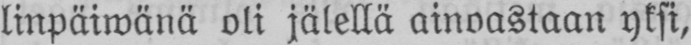linpäiwänä oli jälellä ainoastaan yksi,
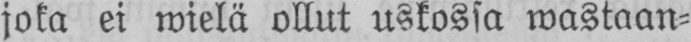joka ei wielä ollut uskossa wastaan-
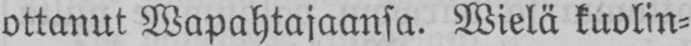ottanut Wapahtajaansa. Wielä kuolin-
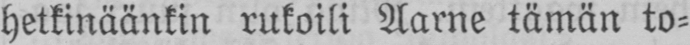hetkinäänkin rukoili Aarne tämän to-
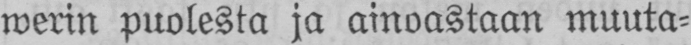werin puolesta ja ainoastaan muuta-
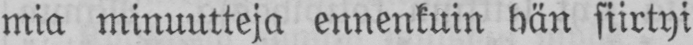mia minuutteja ennenkuin hän siirtyi
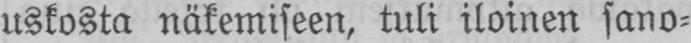uskosta näkemiseen, tuli iloinen sano-
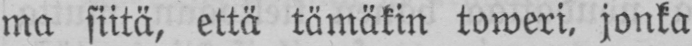ma siitä, että tämäkin toweri, jonka
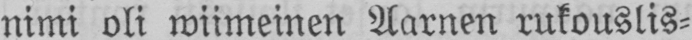nimi oli wiimeinen Aarnen rukouslis-
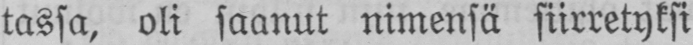tassa, oli saanut nimensä siirretyksi
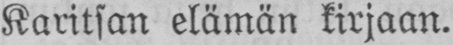Karitsan elämän kirjaan.
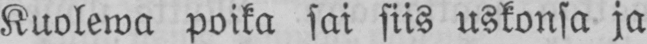Kuolewa poika sai siis uskonsa ja
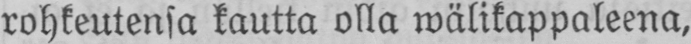rohkeutensa kautta olla wälikappaleena,
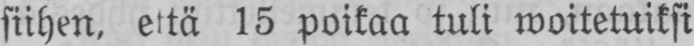siihen, että 15 poikaa tuli woitetuiksi
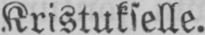Kristukselle.
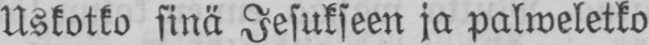Uskotko sinä Jesukseen ja palweletko
